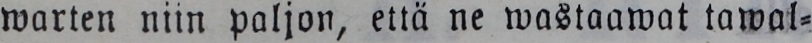warten niin paljon, että ne wastaawat tawal-
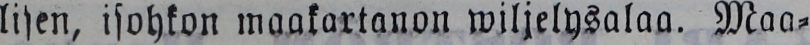lisen, isohkon maakartanon wiljelysalaa. Maa-
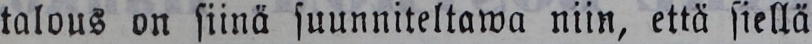talous on siinä suunniteltawa niin, että siellä
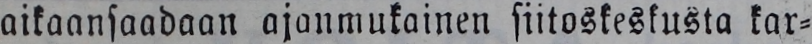aikaansaadaan ajanmukainen siitoskeskusta kar-
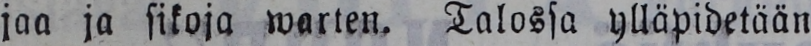jaa ja sikoja warten. Talossa ylläpidetään
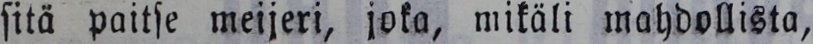sitä paitse meijeri, joka, mikäli mahdollista,
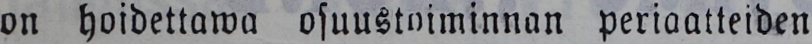on hoidettawa osuustoiminnan periaatteiden
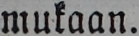mukaan.
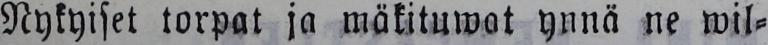Nykyiset torpat ja mäkituwat ynnä ne wil-
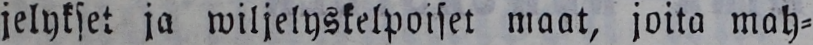jelykset ja wiljelyskelpoiset maat, joita mah-
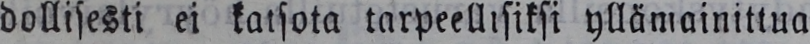dollisesti ei katsota tarpeellisiksi yllämainittua
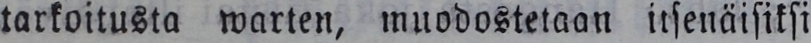tarkoitusta warten, muodostetaan itsenäisiksi
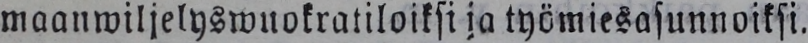maanwiljelyswuokratiloiksi ja työmiesasunnoiksi.
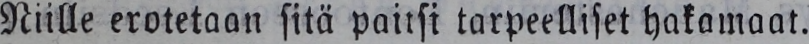Niille erotetaan sitä paitsi tarpeelliset hakamaat.
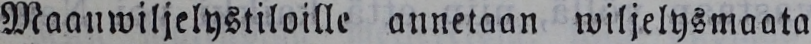Maanwiljelystiloille annetaan wiljelysmaata
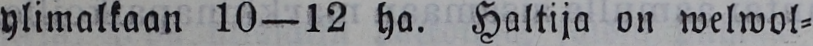ylimalkaan 10—12 ha. Haltija on welwol-
